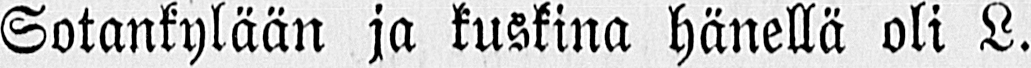Sotankylään ja kuskina hänellä oli L.
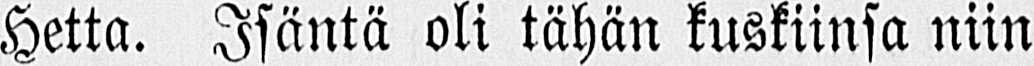Hetta. Isäntä oli tähän kuskiinsa niin
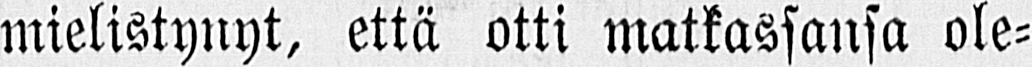mielistynyt, että otti matkassansa ole-
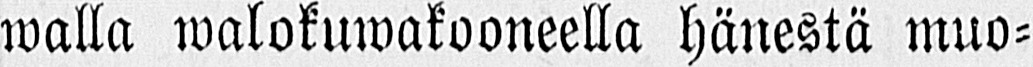walla walokuwakooneella hänestä muo-
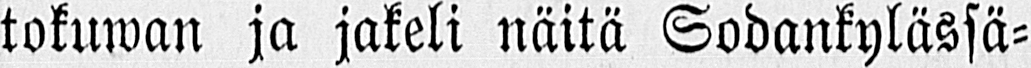tokuwan ja jakeli näitä Sodankylässä-
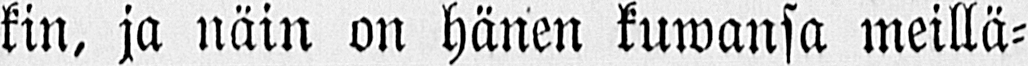kin, ja näin on hänen kuwansa meillä-
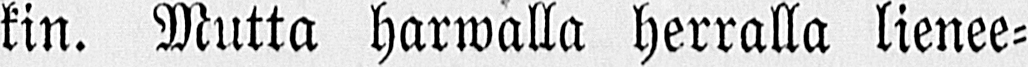kin. Mutta Harwalla herralla lienee-
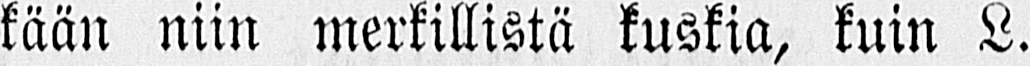kään niin merkillistä kuskia, kuin L.
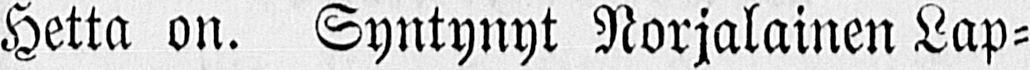Hetta on. Syntynyt Norjalainen Lap-
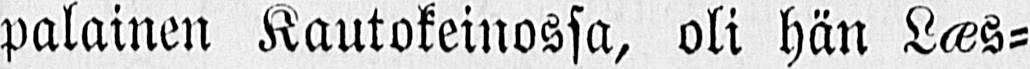palainen Kautokeinossa, oli hän Læs-
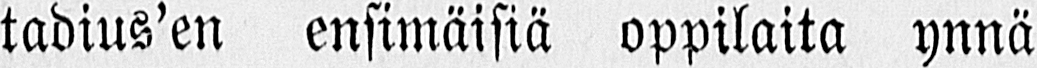tadius'en ensimäistä oppilaita ynnä
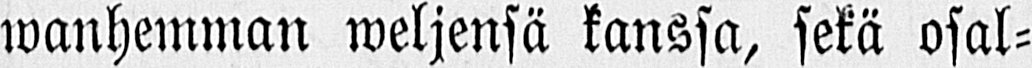wanhemman weljensä kanssa, sekä osal-
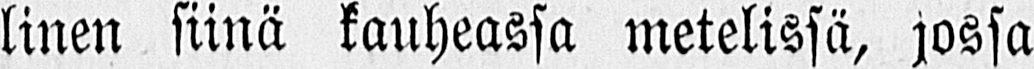linen siinä kauheassa metelissä, jossa
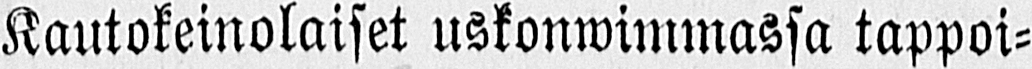Kautokeinolaiset uskonwimmassa tappoi-
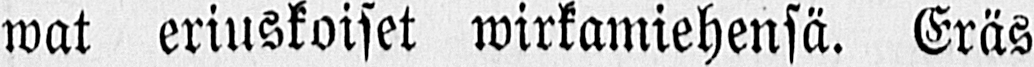wat eriuskoiset wirkamiehensä. Eräs
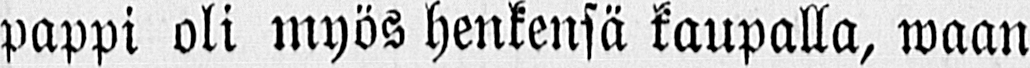pappi oli myös henkensä kaupalla, waan
